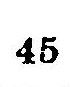45
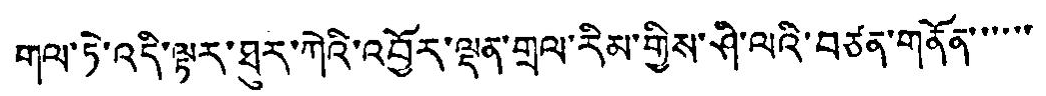གལ་ཏེ་འདི་ལྟར་ཐུར་ཀེའི་འབྱོར་ལྡན་གྲལ་རིམ་གྱིས་ཤི་ལའི་བཙན་གནོན་་་་་་
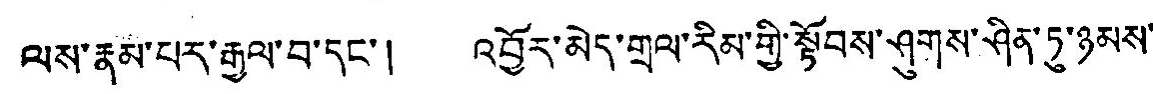ལས་རྣམ་པར་རྒྱལ་བ་དང་། འབྱོར་མེད་གྲལ་རིམ་གྱི་སྟོབས་ཤུགས་ཤིན་ཏུ་ཉམས་
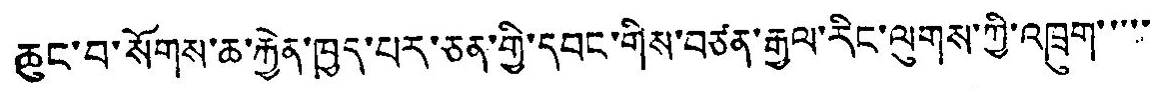ཆུང་བ་སོགས་ཆ་རྐྱེན་ཁྱད་པར་ཅན་གྱི་དབང་གིས་བཙན་རྒྱལ་རིང་ལུགས་ཀྱི་འཁྲུག་་་་་
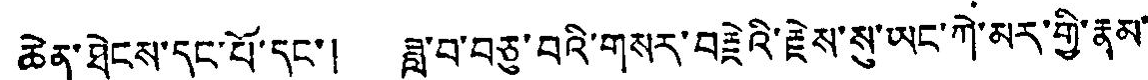ཆེན་ཐེངས་དང་པོ་དང་། ཟླ་བ་བཅུ་བའི་གསར་བརྗེའི་རྗེས་སུ་ཡང་ཀེ་མར་གྱི་རྣམ་
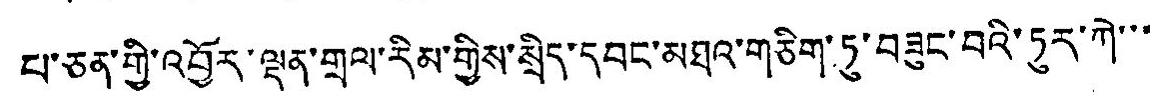པ་ཅན་གྱི་འབྱོར་ལྡན་གྲལ་རིམ་གྱིས་སྲིད་དབང་མཐའ་གཅིག་ཏུ་བཟུང་བའི་ཏུར་ཀེ་་་
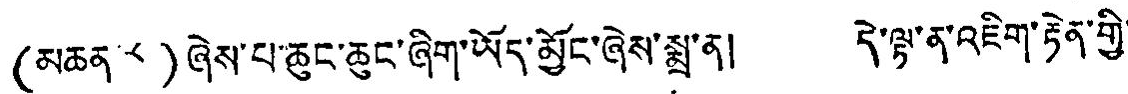(མཆན ༨)ཞེས་པ་ཆུང་ཆུང་ཞིག་ཡོད་མྱོང་ཞེས་སྨྲ་ན། དེ་ལྟ་ན་འཇིག་རྟེན་གྱི་
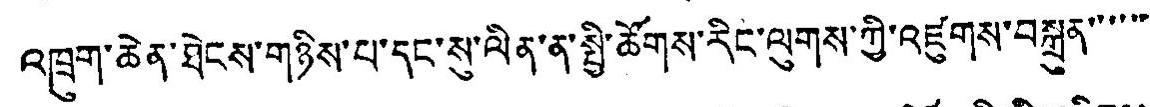འཁྲུག་ཆེན་ཐེངས་གཉིས་པ་དང་སུ་ལིན་ན་སྤྱི་ཚོགས་རིང་ལུགས་ཀྱི་འཛུགས་བསྐྲུན་་་་་་
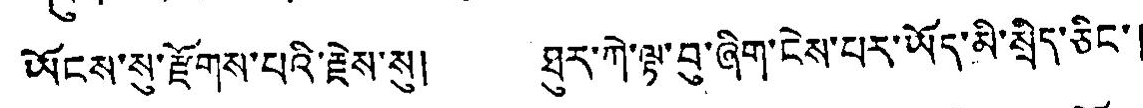ཡོངས་སུ་རྫོགས་པའི་རྗེས་སུ། ཐུར་ཀེ་ལྟ་བུ་ཞིག་ངེས་པར་ཡོད་མི་སྲིད་ཅིང་།
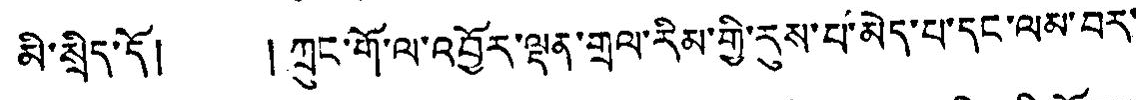མི་སྲིད་དོ། །ཀྲུང་གོ་ལ་འབྱོར་ལྡན་གྲལ་རིམ་གྱི་རུས་པ་མེད་པ་དང་ལམ་བར་
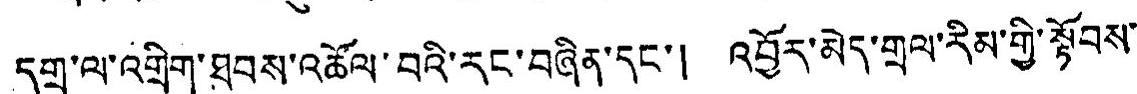དགྲ་ལ་འགྲིག་ཐབས་འཚོལ་བའི་རང་བཞིན་དང་། འབྱོར་མེད་གྲལ་རིམ་གྱི་སྟོབས་
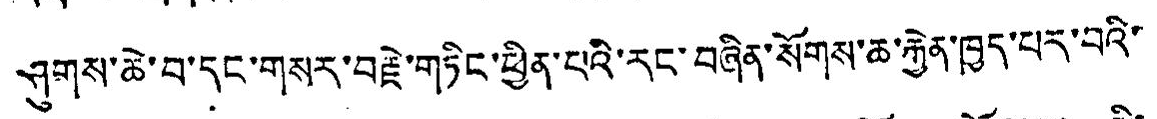ཤུགས་ཆེ་བ་དང་གསར་བརྗེ་གཏིང་ཕྱིན་པའི་རང་བཞིན་སོགས་ཆ་རྐྱེན་ཁྱད་པར་བའི་
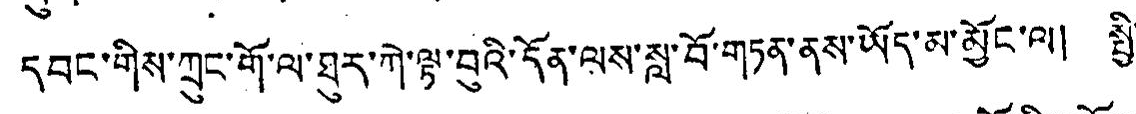དབང་གིས་ཀྲུང་གོ་ལ་ཐུར་ཀེ་ལྟ་བུའི་དོན་ལས་སླ་བོ་གཏན་ནས་ཡོད་མ་མྱོང་ལ། སྤྱི་
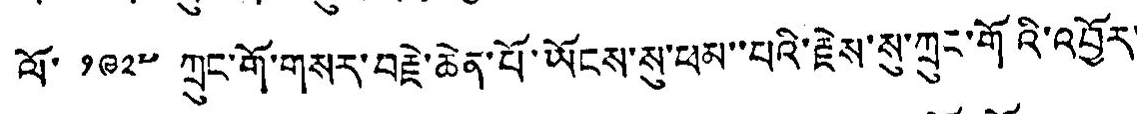ལོ་ ༡༩༢༧ ཀྲུང་གོ་གསར་བརྗེ་ཆེན་པོ་ཡོངས་སུ་ཕམ་་པའི་རྗེས་སུ་ཀྲུང་གོའི་འབྱོར་
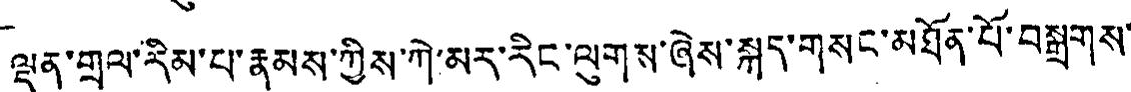ལྡན་གྲལ་རིམ་པ་རྣམས་ཀྱིས་ཀེ་མར་རིང་ལུགས་ཞེས་སྐད་གསང་མཐོན་པོ་བསྒྲགས་
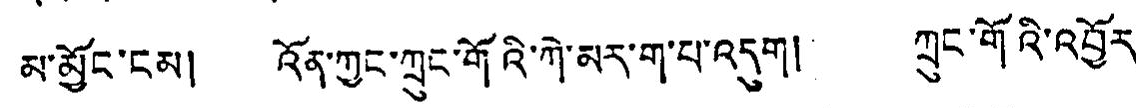མ་མྱོང་ངམ། འོན་ཀྱང་ཀྲུང་གོའི་ཀེ་མར་ག་པ་འདུག། ཀྲུང་གོའི་འབྱོར་
